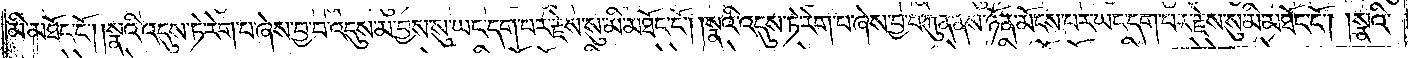མི་མཐོང་ངོ༌། །སྣའི་འདུས་ཏེ་རེག་པ་ཞེས་བྱ་བ་འདུས་མ་བྱས་སུ་ཡང་དག་པར་རྗེས་སུ་མི་མཐོང་ངོ༌། །སྣའི་འདུས་ཏེ་རེག་པ་ཞེས་བྱ་བ་ཀུན་ནས་ཉོན་མོངས་པར་ཡང་དག་པར་རྗེས་སུ་མི་མཐོང་ངོ༌། །སྣའི་
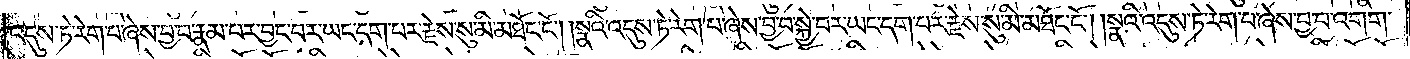འདུས་ཏེ་རེག་པ་ཞེས་བྱ་བ་རྣམ་པར་བྱང་བར་ཡང་དག་པར་རྗེས་སུ་མི་མཐོང་ངོ༌། །སྣའི་འདུས་ཏེ་རེག་པ་ཞེས་བྱ་བ་སྐྱེ་བར་ཡང་དག་པར་རྗེས་སུ་མི་མཐོང་ངོ༌། །སྣའི་འདུས་ཏེ་རེག་པ་ཞེས་བྱ་བ་འགག་
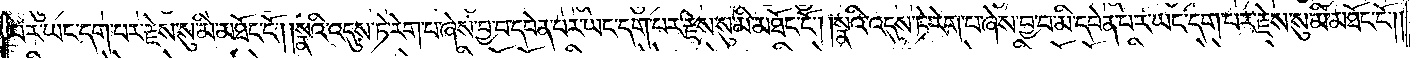པར་ཡང་དག་པར་རྗེས་སུ་མི་མཐོང་ངོ༌། །སྣའི་འདུས་ཏེ་རེག་པ་ཞེས་བྱ་བ་དབེན་པར་ཡང་དག་པར་རྗེས་སུ་མི་མཐོང་ངོ༌། །སྣའི་འདུས་ཏེ་རེག་པ་ཞེས་བྱ་བ་མི་དབེན་པར་ཡང་དག་པར་རྗེས་སུ་མི་མཐོང་ངོ༌༎
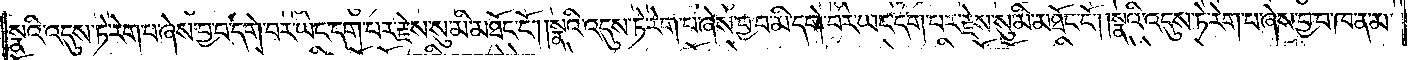སྣའི་འདུས་ཏེ་རེག་པ་ཞེས་བྱ་བ་དགེ་བར་ཡང་དག་པར་རྗེས་སུ་མི་མཐོང་ངོ༌། །སྣའི་འདུས་ཏེ་རེག་པ་ཞེས་བྱ་བ་མི་དགེ་བར་ཡང་དག་པར་རྗེས་སུ་མི་མཐོང་ངོ༌། །སྣའི་འདུས་ཏེ་རེག་པ་ཞེས་བྱ་བ་ཁ་ན་མ་
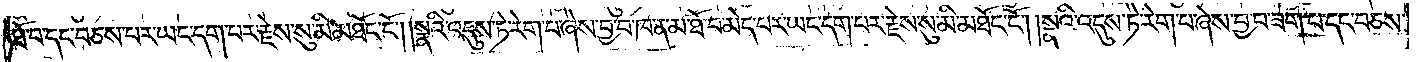ཐོ་བ་དང་བཅས་པར་ཡང་དག་པར་རྗེས་སུ་མི་མཐོང་ངོ༌། །སྣའི་འདུས་ཏེ་རེག་པ་ཞེས་བྱ་བ་ཁ་ན་མ་ཐོ་བ་མེད་པར་ཡང་དག་པར་རྗེས་སུ་མི་མཐོང་ངོ༌། །སྣའི་འདུས་ཏེ་རེག་པ་ཞེས་བྱ་བ་ཟག་པ་དང་བཅས་
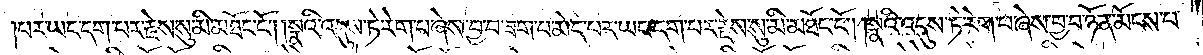པར་ཡང་དག་པར་རྗེས་སུ་མི་མཐོང་ངོ༌། །སྣའི་འདུས་ཏེ་རེག་པ་ཞེས་བྱ་བ་ཟག་པ་མེད་པར་ཡང་དག་པར་རྗེས་སུ་མི་མཐོང་ངོ༌། །སྣའི་འདུས་ཏེ་རེག་པ་ཞེས་བྱ་བ་ཉོན་མོངས་པ་
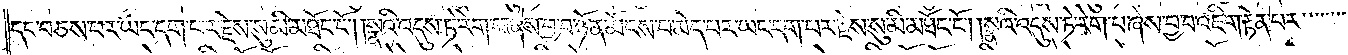དང་བཅས་པར་ཡང་དག་པར་རྗེས་སུ་མི་མཐོང་ངོ༌། །སྣའི་འདུས་ཏེ་རེག་པ་ཞེས་བྱ་བ་ཉོན་མོངས་པ་མེད་པར་ཡང་དག་པར་རྗེས་སུ་མི་མཐོང་ངོ༌། །སྣའི་འདུས་ཏེ་རེག་པ་ཞེས་བྱ་བ་འཇིག་རྟེན་པར་
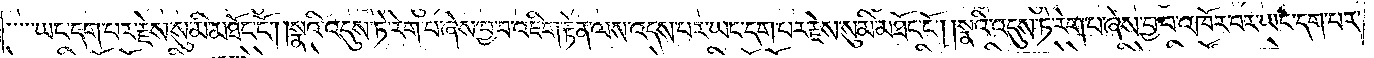ཡང་དག་པར་རྗེས་སུ་མི་མཐོང་ངོ༌། །སྣའི་འདུས་ཏེ་རེག་པ་ཞེས་བྱ་བ་འཇིག་རྟེན་ལས་འདས་པར་ཡང་དག་པར་རྗེས་སུ་མི་མཐོང་ངོ༌། །སྣའི་འདུས་ཏེ་རེག་པ་ཞེས་བྱ་བ་འཁོར་བར་ཡང་དག་པར་
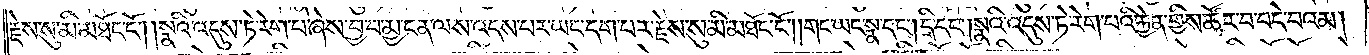རྗེས་སུ་མི་མཐོང་ངོ༌། །སྣའི་འདུས་ཏེ་རེག་པ་ཞེས་བྱ་བ་མྱ་ངན་ལས་འདས་པར་ཡང་དག་པར་རྗེས་སུ་མི་མཐོང་ངོ༌། །གང་ཡང་སྣ་དང༌། དྲི་དང༌། སྣའི་འདུས་ཏེ་རེག་པའི་རྐྱེན་གྱིས་ཚོར་བ་བདེ་བའམ།
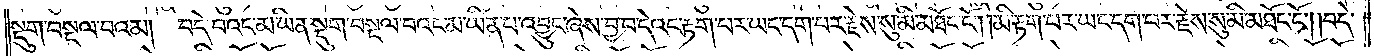སྡུག་བསྔལ་བའམ། བདེ་བའང་མ་ཡིན་སྡུག་བསྔལ་བའང་མ་ཡིན་པ་འབྱུང་ཞེས་བྱ་བ་དེའང་རྟག་པར་ཡང་དག་པར་རྗེས་སུ་མི་མཐོང་ངོ༌། །མི་རྟག་པར་ཡང་དག་པར་རྗེས་སུ་མི་མཐོང་ངོ༌། །བདེ་
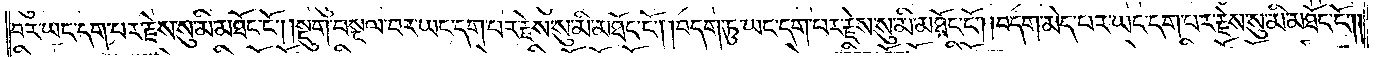བར་ཡང་དག་པར་རྗེས་སུ་མི་མཐོང་ངོ༌། །སྡུག་བསྔལ་བར་ཡང་དག་པར་རྗེས་སུ་མི་མཐོང་ངོ༌། །བདག་ཏུ་ཡང་དག་པར་རྗེས་སུ་མི་མཐོང་ངོ༌། །བདག་མེད་པར་ཡང་དག་པར་རྗེས་སུ་མི་མཐོང་ངོ༌། །
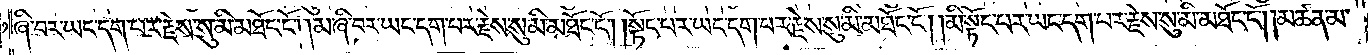ཞི་བར་ཡང་དག་པར་རྗེས་སུ་མི་མཐོང་ངོ༌། །མ་ཞི་བར་ཡང་དག་པར་རྗེས་སུ་མི་མཐོང་ངོ༌། །སྟོང་པར་ཡང་དག་པར་རྗེས་སུ་མི་མཐོང་ངོ༌། །མི་སྟོང་པར་ཡང་དག་པར་རྗེས་སུ་མི་མཐོང་ངོ༌། །མཚན་མ་
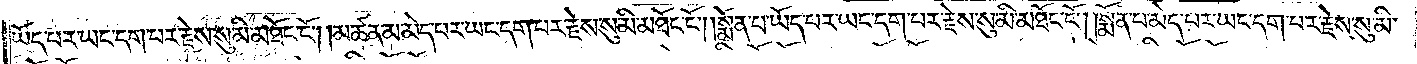ཡོད་པར་ཡང་དག་པར་རྗེས་སུ་མི་མཐོང་ངོ༌། །མཚན་མ་མེད་པར་ཡང་དག་པར་རྗེས་སུ་མི་མཐོང་ངོ༌། །སྨོན་པ་ཡོད་པར་ཡང་དག་པར་རྗེས་སུ་མི་མཐོང་ངོ༌། །སྨོན་པ་མེད་པར་ཡང་དག་པར་རྗེས་སུ་མི་
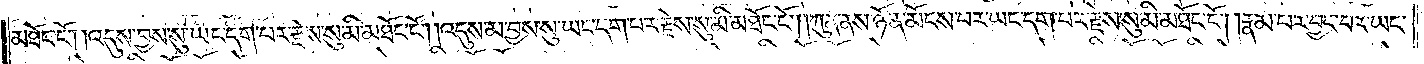མཐོང་ངོ༌། །འདུས་བྱས་སུ་ཡང་དག་པར་རྗེས་སུ་མི་མཐོང་ངོ༌། །འདུས་མ་བྱས་སུ་ཡང་དག་པར་རྗེས་སུ་མི་མཐོང་ངོ༌། །ཀུན་ནས་ཉོན་མོངས་པར་ཡང་དག་པར་རྗེས་སུ་མི་མཐོང་ངོ༌། །རྣམ་པར་བྱང་བར་ཡང་
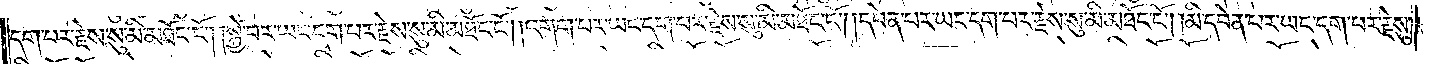དག་པར་རྗེས་སུ་མི་མཐོང་ངོ༌། །སྐྱེ་བར་ཡང་དག་པར་རྗེས་སུ་མི་མཐོང་ངོ༌། །འགག་པར་ཡང་དག་པར་རྗེས་སུ་མི་མཐོང་ངོ༌། །དབེན་པར་ཡང་དག་པར་རྗེས་སུ་མི་མཐོང་ངོ༌། །མི་དབེན་པར་ཡང་དག་པར་རྗེ་སུ་
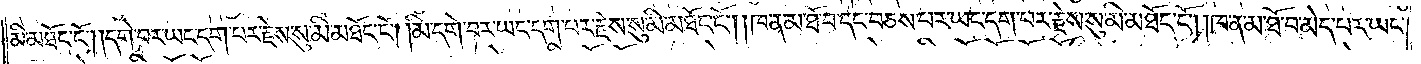མི་མཐོང་ངོ༌། །དགེ་བར་ཡང་དག་པར་རྗེས་སུ་མི་མཐོང་ངོ༌། །མི་དགེ་བར་ཡང་དག་པར་རྗེས་སུ་མི་མཐོང་ངོ༌། །ཁ་ན་མ་ཐོ་བ་དང་བཅས་པར་ཡང་དག་པར་རྗེས་སུ་མི་མཐོང་ངོ༌། །ཁ་ན་མ་ཐོ་བ་མེད་པར་ཡང་
